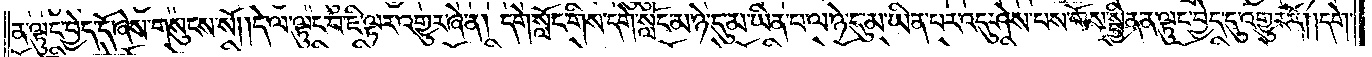ན་ལྟུང་བྱེད་དོ་ཞེས་གསུངས་སོ། །དེ་ལ་ལྟུང་བ་ཇི་ལྟར་འགྱུར་ཞེ་ན། དགེ་སློང་གིས་དགེ་སློང་མ་ཉེ་དུ་མ་ཡིན་པ་ལ་ཉེ་དུ་མ་ཡིན་པར་འདུ་ཤེས་པས་གོས་སྦྱིན་ན་ལྟུང་བྱེད་དུ་འགྱུར་རོ། །དགེ་
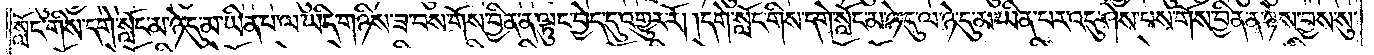སློང་གིས་དགེ་སློང་མ་ཉེ་དུ་མ་ཡིན་པ་ལ་ཡིད་གཉིས་ཟ་བས་གོས་བྱིན་ན་ལྟུང་བྱེད་དུ་འགྱུར་རོ། །དགེ་སློང་གིས་དགེ་སློང་མ་ཉེ་དུ་ལ་ཉེ་དུ་མ་ཡིན་པར་འདུ་ཤེས་པས་གོས་བྱིན་ན་ཉེས་བྱས་སུ་
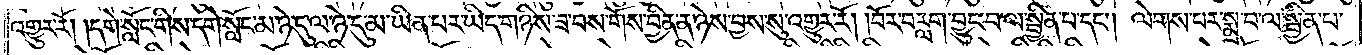འགྱུར་རོ། །དགེ་སློང་གིས་དགེ་སློང་མ་ཉེ་དུ་ལ་ཉེ་དུ་མ་ཡིན་པར་ཡིད་གཉིས་ཟ་བས་གོས་བྱིན་ན་ཉེས་བྱས་སུ་འགྱུར་རོ། །བོར་བརླག་བྱུང་བ་ལ་སྦྱིན་པ་དང༌། ལེགས་པར་སྨྲ་བ་ལ་སྦྱིན་པ་
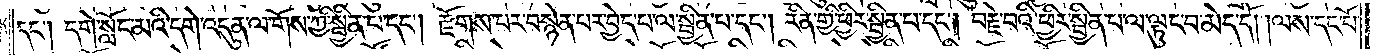དང༌། དགེ་སློང་མའི་དགེ་འདུན་ལ་གོས་ཀྱི་སྦྱིན་པ་དང༌། རྫོགས་པར་བསྙེན་པར་བྱེད་པ་ལ་སྦྱིན་པ་དང༌། རིན་གྱི་ཕྱིར་སྦྱིན་པ་དང༌། བརྗེ་བའི་ཕྱིར་སྦྱིན་པ་ལ་ལྟུང་བ་མེད་དོ། །ལས་དང་པོ་
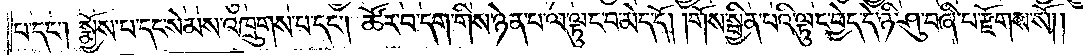པ་དང༌། སྨྱོས་པ་དང་སེམས་འཁྲུགས་པ་དང༌། ཚོར་བ་དག་གིས་ཉེན་པ་ལ་ལྟུང་བ་མེད་དོ། །གོས་སྦྱིན་པའི་ལྟུང་བྱེད་དེ་ཉི་ཤུ་བཞི་པ་རྫོགས་སོ༎
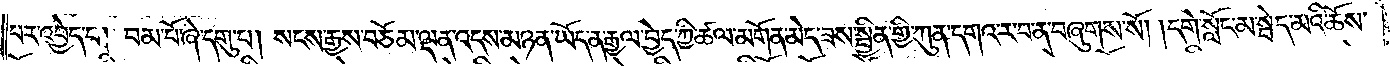པར་འབྱེད་པ། བམ་པོ་ཞེ་དགུ་པ། སངས་རྒྱས་བཅོམ་ལྡན་འདས་མཉན་ཡོད་ན་རྒྱལ་བྱེད་ཀྱི་ཚལ་མགོན་མེད་ཟས་སྦྱིན་གྱི་ཀུན་དགའ་ར་བ་ན་བཞུགས་སོ། །དགེ་སློང་མ་སྦེད་མའི་ཆོས་
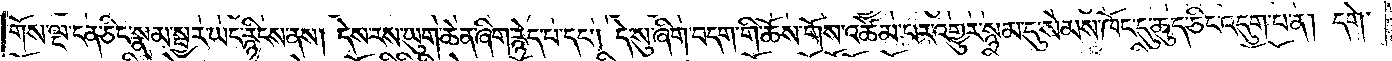གོས་ལྔ་ངན་ཅིང་སྣམ་སྦྱར་ཡང་རྙིངས་ནས། དེས་རས་ཡུག་ཆེན་ཞིག་རྙེད་པ་དང༌། དེ་སུ་ཞིག་བདག་གི་ཆོས་གོས་འཚེམ་པར་འགྱུར་སྙམ་དུ་སེམས་ཁོང་དུ་ཆུད་ཅིང་འདུག་པ་ན། དགེ་
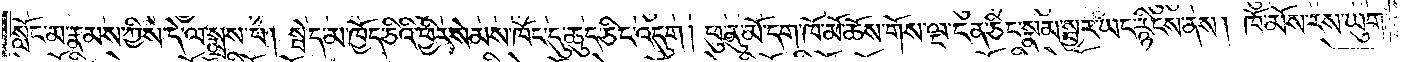སློང་མ་རྣམས་ཀྱིས་དེ་ལ་སྨྲས་པ། སྦེད་མ་ཁྱོད་ཅིའི་ཕྱིར་སེམས་ཁོང་དུ་ཆུང་ཅིང་འདུག །ཕུ་ནུ་མོ་དག་ཁོ་མོ་ཆོས་གོས་ལྔ་ངན་ཅིང་སྣམ་སྦྱར་ཡང་རྙིངས་ནས། ཁོ་མོས་རས་ཡུག་
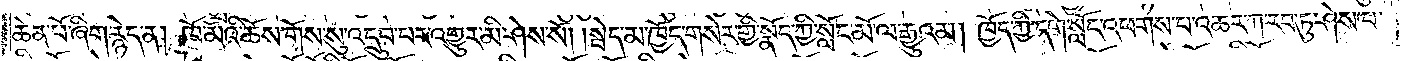ཆེན་པོ་ཞིག་རྙེད་ན། ཁོ་མོའི་ཆོས་གོས་སུ་འདྲུབ་པར་འགྱུར་མི་ཤེས་སོ། །སྦེད་མ་ཁྱོད་གསེར་གྱི་སྣོད་ཀྱི་སློང་མོ་ལ་རྒྱུའམ། ཁྱོད་ཀྱི་དགེ་སློང་འཕགས་པ་འཆར་ཀ་རབ་ཏུ་ཤེས་པ་
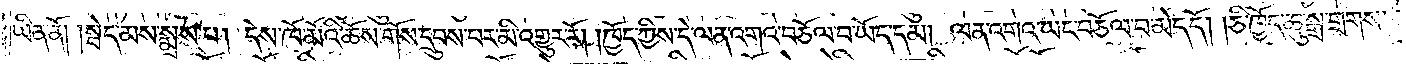ཡིན་ནོ། །སྦེད་མས་སྨྲས་པ། དེས་ཁོ་མོའི་ཆོས་གོས་དྲུབས་པར་མི་འགྱུར་རོ། །ཁྱོད་ཀྱིས་དེ་ལན་འགའ་བཅོལ་བ་ཡོད་དམ། ལན་འགའ་ཡང་བཅོལ་བ་མེད་དོ། །ཅི་ཁྱོད་ཆུ་སྒྲ་གྲགས་
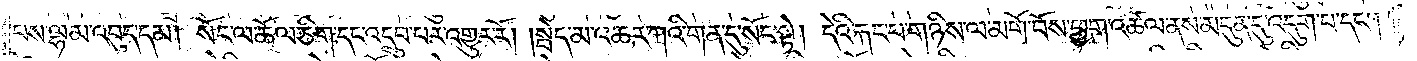པས་ལྷམ་འབུད་དམ། སོང་ལ་ཆོལ་ཅིག་དང་འདྲུབ་པར་འགྱུར་རོ། །སྦེད་མ་འཆར་ཀའི་གན་དུ་སོང་སྟེ། དེའི་རྐང་པ་གཉིས་ལ་མགོ་བོས་ཕྱག་འཚལ་ནས་མདུན་དུ་འདུག་པ་དང༌།
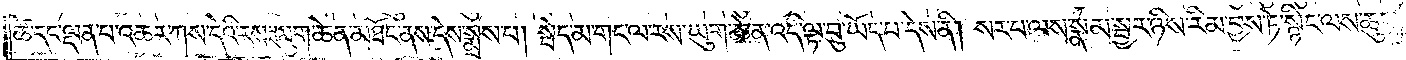ཚེ་དང་ལྡན་པ་འཆར་ཀས་དེའི་རས་ཡུག་ཆེན་མཐོང་ནས་དེས་སྨྲས་པ། སྦེད་མ་གང་ལ་རས་ཡུག་ཆེན་འདི་ལྟ་བུ་ཡོད་པ་དེས་ནི། སར་པ་ལས་སྣམ་སྦྱར་ཉིས་རིམ་བྱས་ཏེ་སྙིང་ལས་ཆུང་
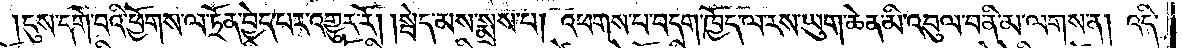དུས་དགེ་བའི་ཕྱོགས་ལ་ཏྲོན་བྱེད་པར་འགྱུར་རོ། །སྤེད་མས་སྨྲས་པ། འཕགས་པ་བདག་ཁྱོད་ལ་རས་ཡུག་ཆེན་མི་འབུལ་བ་ནི་མ་ལགས་ན། འདི་
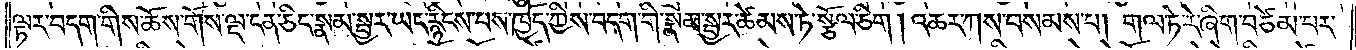ལྟར་བདག་གིས་ཆོས་གོས་ལྔ་ངན་ཅིང་སྣམ་སྦྱར་ཡང་རྙིངས་པས་ཁྱོད་ཀྱིས་བདག་གི་སྣམ་སྦྱར་ཚེམས་ཏེ་སྩོལ་ཅིག ། འཆར་ཀས་བསམས་པ། གལ་ཏེ་རེ་ཞིག་བཙེམ་པར་
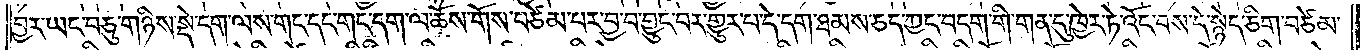བྱར་ཡང་བཅུ་གཉིས་སྡེ་དག་ལས་གང་དང་གང་དག་ལ་ཆོས་གོས་བཙེམ་པར་བྱ་བ་བྱུང་བར་གྱུར་པ་དེ་དག་ཐམས་ཅད་ཀྱང་བདག་གི་གན་དུ་ཁྱེར་ཏེ་འོང་བས་དེ་སྙེད་ཅིག་བཙེམ་
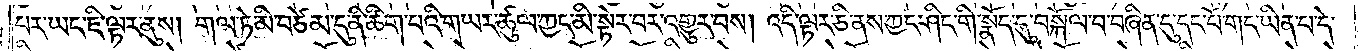པར་ཡང་ཇི་ལྟར་ནུས། གལ་ཏེ་མི་བཙེམ་དུ་ནི་ཚིག་པའི་གཡར་ཚུལ་ཀྱང་མི་སྟེར་བར་འགྱུར་བས། འདི་ལྟར་ཅི་ནས་ཀྱང་ཤིང་གི་སྣོད་དུ་བསྐོལ་བ་བཞིན་དུ་དང་པོ་གང་ཡིན་པ་དེ་
